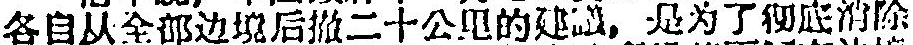各自从全部边境后撤二十公里的建議，是为了彻底消除
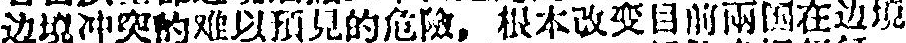边境冲突的难以預見的危險。根本改变目前兩国在边境
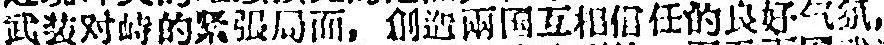武装对峙的紧張局面，創造兩国互相信任的良好气氛，
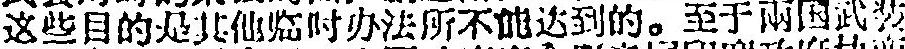这些目的是其他临时办法所不能达到的。至于兩国武装
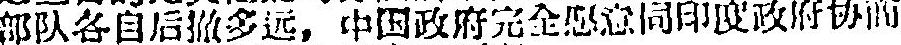部队各自后撤多远，中国政府完全愿意同印度政府协商
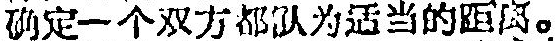确定一个双方都认为适当的距离。
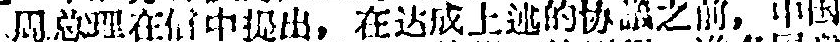周总理在信中提出，在达成上述的协議之前，中国
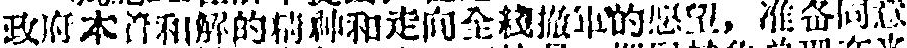政府本着和解的精神和走向全綫撤軍的愿望，准备同意
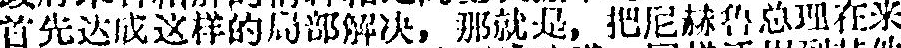首先达成这样的局部解決，那就是，把尼赫魯总理在来
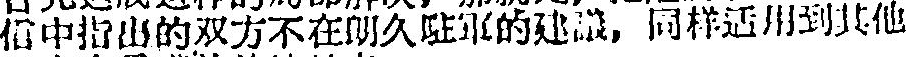信中指出的双方不在朗久駐軍的建議，同样适用到其他
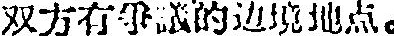双方有爭議的边境地点。
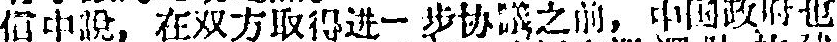信中說，在双方取得进一步协議之前，中出政府也
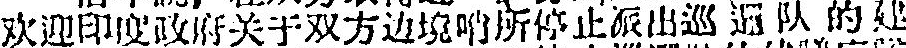欢迎印度政府关于双方边境哨所停止派出巡逻队的建
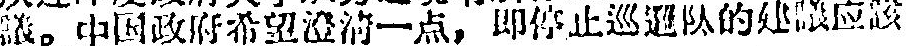議。中国政府希望澄清一点：即停止巡逻队的建議应該
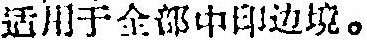适用于全部中印边境。
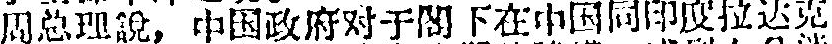周总理說，中国政府对于閣下在中国同印度拉达克
